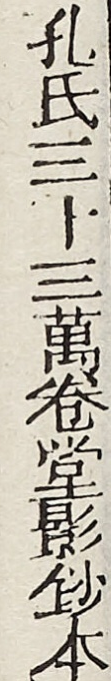孔氏三十三萬卷堂影鈔本
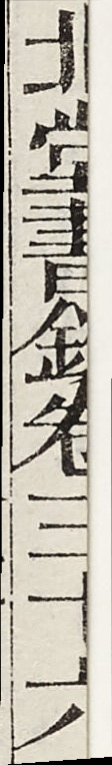北堂書鈔卷第三十六
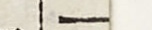一
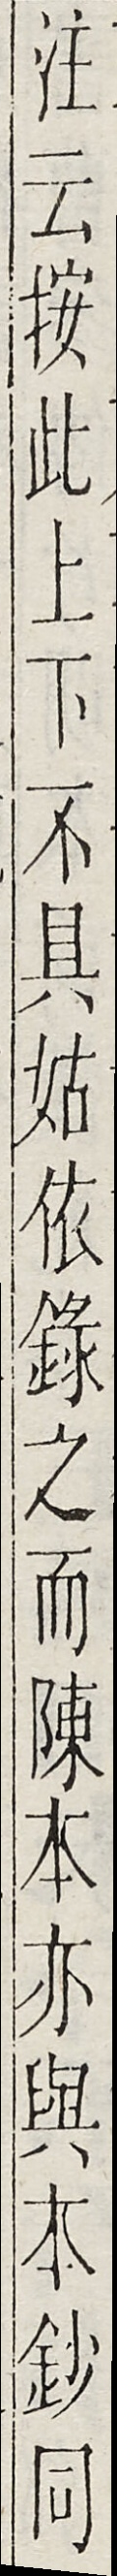注云按此上下不具姑依錄之而陳本亦與本鈔同
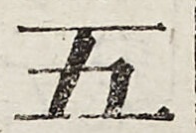五
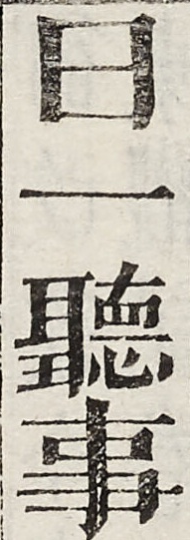日一聽事
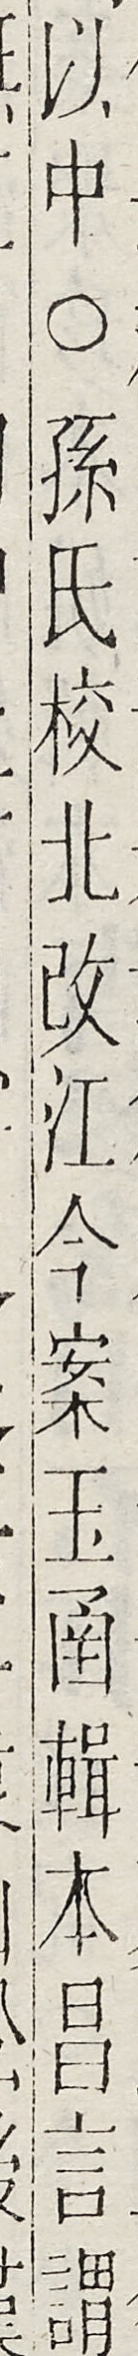以中○孫氏校北改江今案玉函輯本昌言謂
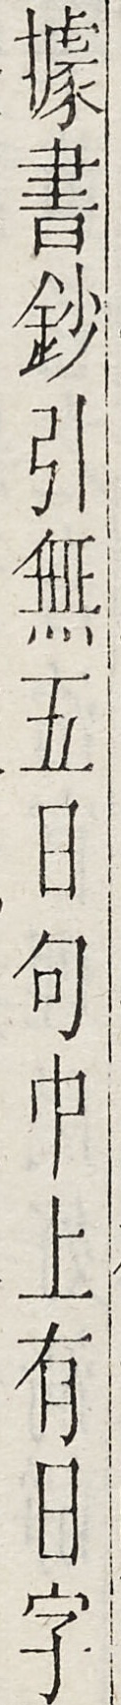據書鈔引無五日句中上有日字
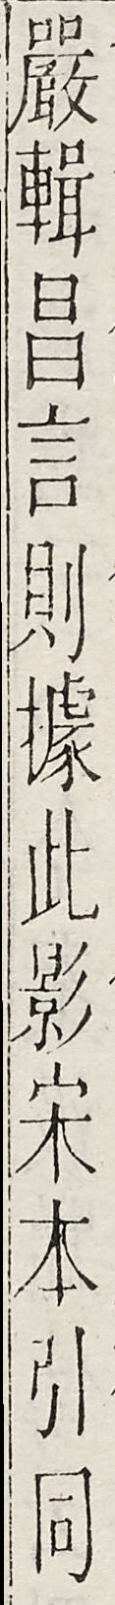嚴輯昌言則據此影宋本引同
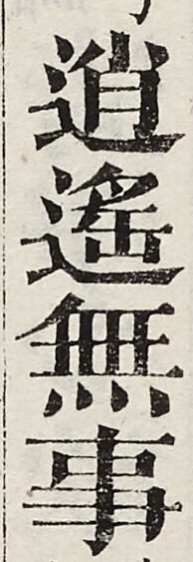逍遙無事
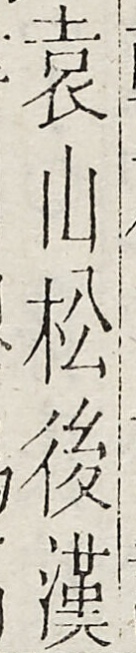袁山松後漢
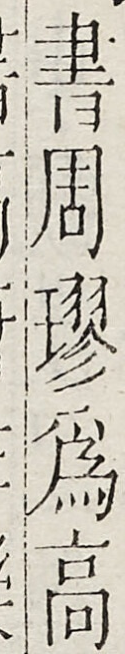書周璆為高
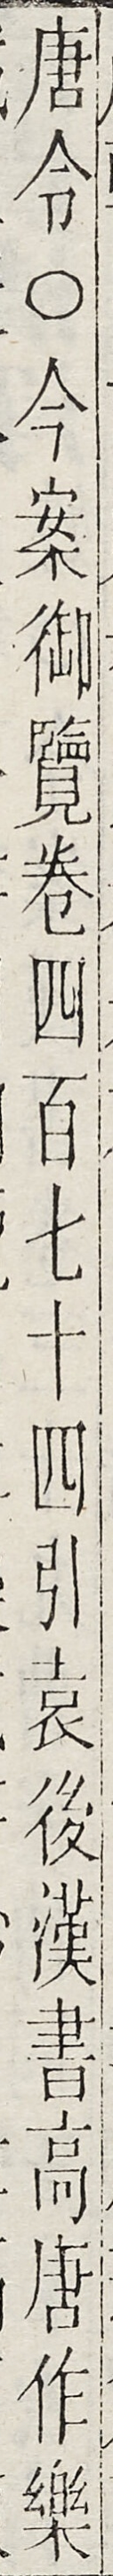唐令○今案御覽卷四百七十四引袁後漢書高唐作樂
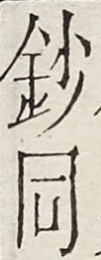鈔同
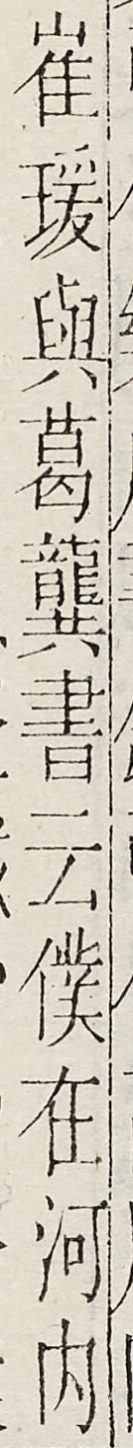崔瑗與葛龔書云僕在河內
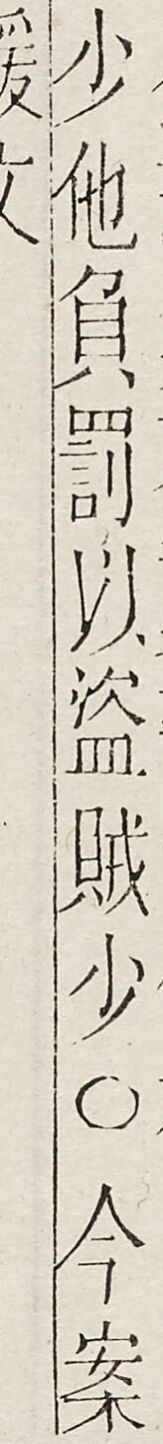少他負罰以盜賊少○今案
